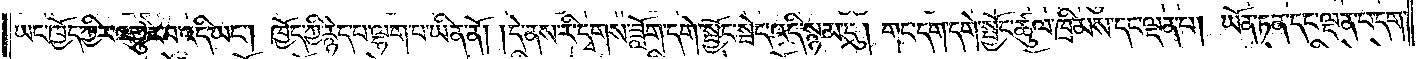ཡང་ཁྱོད་ཀྱིར་འགྱུར་བ་འདི་ཡང༌། ཁྱོད་ཀྱི་རྙེད་པ་ལྷག་པ་ཡིན་ནོ། །དེ་ནས་རི་དྭགས་ཟློག་དགེ་སྦྱོང་སྦེད་འདི་སྙམ་དུ། གང་དག་དགེ་སྦྱོང་ཚུལ་ཁྲིམས་དང་ལྡན་པ། ཡོན་ཏན་དང་ལྡན་པ་དག་
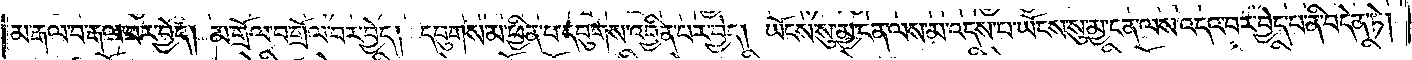མ་རྒལ་བ་རྒལ་བར་བྱེད། མ་གྲོལ་བ་གྲོལ་བར་བྱེད། དབུགས་མ་ཕྱིན་པ་དབུགས་འབྱིན་པར་བྱེད། ཡོངས་སུ་མྱ་ངན་ལས་མ་འདས་པ་ཡོངས་སུ་མྱ་ངན་ལས་འདའ་བར་བྱེད་པ་ནི་བདེན་ཏེ།
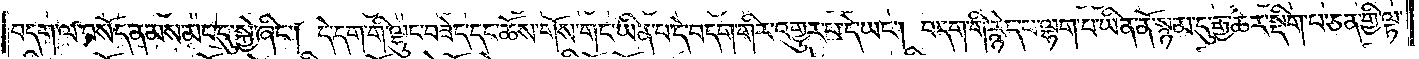བདག་ལ་བསོད་ནམས་མང་དུ་སྐྱེ་ཞིང༌། དེ་དག་གི་ལྷུང་བཟེད་དང་ཆོས་གོས་གང་ཡིན་པ་དེ་བདག་གིར་འགྱུར་པ་དེ་ཡང༌། བདག་གི་རྙེད་པ་ལྷག་པ་ཡིན་ནོ་སྙམ་དུ་རྒྱ་ཆེར་སྡིག་པ་ཅན་གྱི་ལྟ་
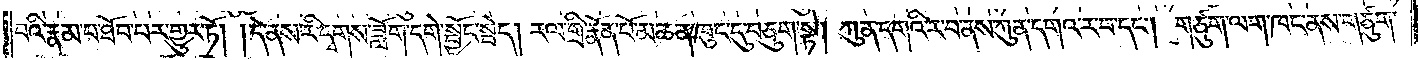བའི་རྣམ་པ་ཐོབ་པར་གྱུར་ཏོ། །དེ་ནས་རི་དྭགས་ཟློག་དགེ་སྦྱོང་སྦེད། རལ་གྲི་རྣོན་པོ་མཆན་ཁུང་དུ་བཅུག་སྟེ། ཀུན་དགའི་ར་བ་ནས་ཀུན་དགའ་ར་བ་དང༌། གཙུག་ལག་ཁང་ནས་གཙུག་
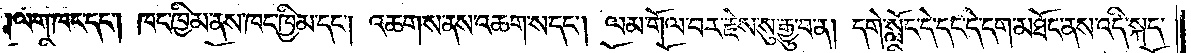ལག་ཁང་དང༌། ཁང་ཁྱིམ་ནས་ཁང་ཁྱིམ་དང༌། འཆག་ས་ནས་འཆག་ས་དང༌། ལམ་གོལ་བར་རྗེས་སུ་རྒྱུ་བ་ན། དགེ་སློང་དེ་དང་དེ་དག་མཐོང་ནས་འདི་སྐད་
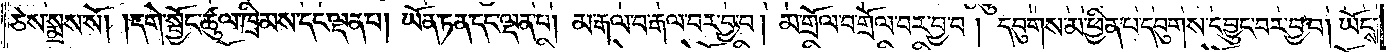ཅེས་སྨྲས་སོ། །དགེ་སྦྱོང་ཚུལ་ཁྲིམས་དང་ལྡན་པ། ཡོན་ཏན་དང་ལྡན་པ། མ་རྒལ་བ་རྒལ་བར་བྱ་བ། མ་གྲོལ་བ་གྲོལ་བར་བྱ་བ། དབུགས་མ་ཕྱིན་པ་དབུགས་དབྱུང་བར་བྱ་བ། ཡོངས་
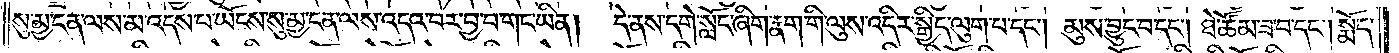སུ་མྱ་ངན་ལས་མ་འདས་པ་ཡོངས་སུ་མྱ་ངན་ལས་འདའ་བར་བྱ་བ་གང་ཡིན། དེ་ནས་དགེ་སློང་ཞིག་རྣག་གི་ལུས་འདིར་སྒྱིད་ལུག་པ་དང༌། མུས་བྱུང་བ་དང༌། ཐེ་ཚོམ་ཟ་བ་དང༌། སྨོད་
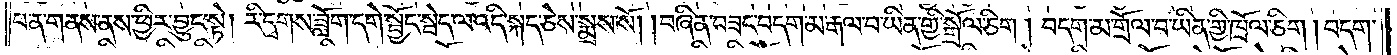པ་ན་གནས་ནས་ཕྱིར་བྱུང་སྟེ། རི་དྭགས་ཟློག་དགེ་སྦྱོང་སྦེད་ལ་འདི་སྐད་ཅེས་སྨྲས་སོ། །བཞིན་བཟང་བདག་མ་རྒལ་བ་ཡིན་གྱི་སྒྲོལ་ཅིག། བདག་མ་གྲོལ་བ་ཡིན་གྱི་ཁྲོལ་ཅིག། བདག་
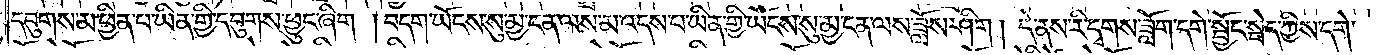དབུགས་མ་ཕྱིན་པ་ཡིན་གྱི་དབུགས་ཕྱུང་ཞིག །བདག་ཡོངས་སུ་མྱ་ངན་ལས་མ་འདས་པ་ཡིན་གྱི་ཡོངས་སུ་མྱ་ངན་ལས་ཟློས་ཤིག། དེ་ནས་རི་དྭགས་ཟློག་དགེ་སྦྱོང་སྦེད་ཀྱིས་དགེ་
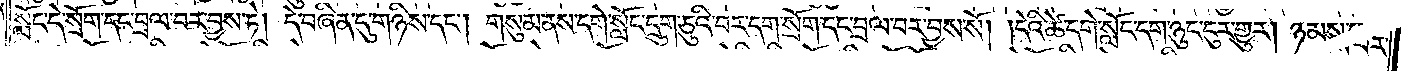སློང་དེ་སྲོག་དང་བྲལ་བར་བྱས་ཏེ། དེ་བཞིན་དུ་གཉིས་དང༌། གསུམ་ནས་དགེ་སློང་དྲུག་ཅུའི་བར་དག་སྲོག་དང་བྲལ་བར་བྱས་སོ། །དེའི་ཚེ་དགེ་སློང་དག་ཉུང་ངུར་གྱུར། ཉམས་པར་
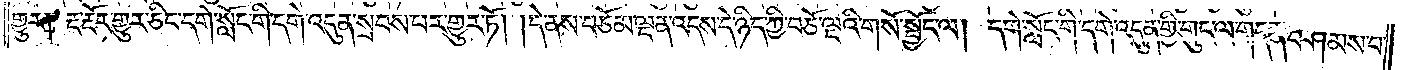གྱུར༑ རྔ་རྡོར་གྱུར་ཅིང་དགེ་སློང་གི་དགེ་འདུན་སྲབས་པར་གྱུར་ཏོ། །དེ་ནས་བཅོམ་ལྡན་འདས་དེ་ཉིད་ཀྱི་བཅོ་ལྔའི་གསོ་སྦྱོང་ལ། དགེ་སློང་གི་དགེ་འདུན་གྱི་གུང་ལ་གདན་བཤམས་པ་
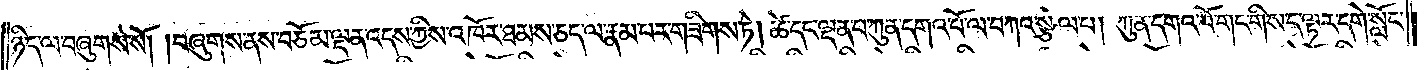ཉིད་ལ་བཞུགས་སོ། །བཞུགས་ནས་བཅོམ་ལྡན་འདས་ཀྱིས་འཁོར་ཐམས་ཅད་ལ་རྣམ་པར་གཟིགས་ཏེ། ཚེ་དང་ལྡན་པ་ཀུན་དགའ་བོ་ལ་བཀའ་སྩོལ་པ། ཀུན་དགའ་བོ་གང་གིས་ད་ལྟར་དགེ་སློང་
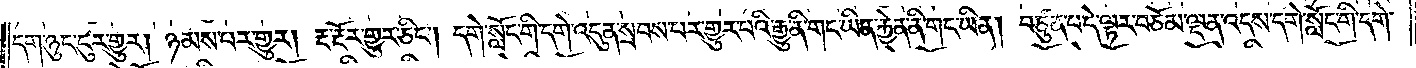དག་ཉུང་ངུར་གྱུར། ཉམས་པར་གྱུར། རྔ་རྔོར་གྱུར་ཅིང༌། དགེ་སློང་གི་དགེ་འདུན་སྲབས་པར་གྱུར་པའི་རྒྱུ་ནི་གང་ཡིན་རྐྱེན་ནི་གང་ཡིན། བཙུན་པ་དེ་ལྟར་བཅོམ་ལྡན་འདས་དགེ་སློང་གི་དགེ་
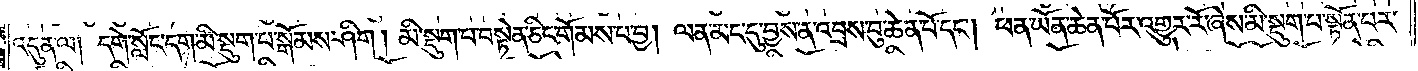འདུན་ལ། དགེ་སློང་དག་མི་སྡུག་པ་སྒོམས་ཤིག། མི་སྡུག་པ་བསྟེན་ཅིང་གོམས་པ་བྱ། ལན་མང་དུ་བྱས་ན་འབྲས་བུ་ཆེན་པོ་དང༌། ཕན་ཡོན་ཆེན་པོར་འགྱུར་རོ་ཞེས་མི་སྡུག་པ་སྟོན་པར་
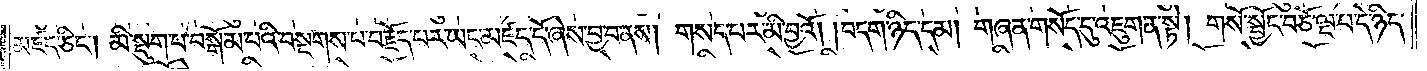མཛད་ཅིང༌། མི་སྡུག་པ་བསྒོམ་པའི་བསྔགས་པ་བརྗོད་པར་ཡང་མཛད་དོ་ཞེས་བྱ་བ་ནས། གསད་པར་མི་བྱའོ། །བདག་ཉིད་དམ། གཞན་གསོད་དུ་འཇུག་ན་སྟེ། གསོ་སྦྱོང་བཅོ་ལྔ་པ་དེ་ཉིད་
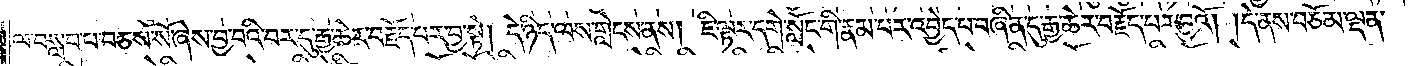ལ་བསླབ་པ་བཅས་སོ་ཞེས་བྱ་བའི་བར་དུ་རྒྱ་ཆེར་བརྗོད་པར་བྱ་སྟེ། དེ་ཉིད་ལས་གླེངས་ནས། ཇི་ལྟར་དགེ་སློང་གི་རྣམ་པར་འབྱེད་པ་བཞིན་དུ་རྒྱ་ཆེར་བརྗོད་པར་བྱའོ། །དེ་ནས་བཅོམ་ལྡན་
